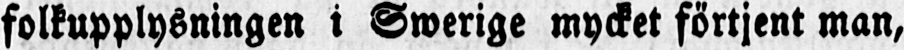folkupplysningen i Swerige mycket förtjent man,
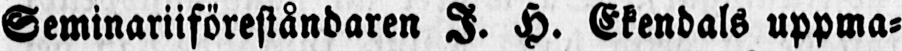Seminariiföreståndaren I. H. Stendals uppma-
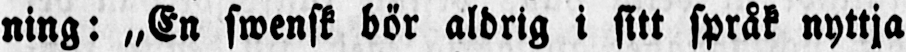ning: „En swensk bör aldrig i sitt språk nyttja
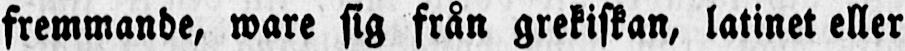fremmande, ware sig från grekiskan, latinet eller
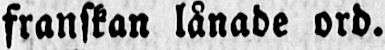franskan lånade ord.
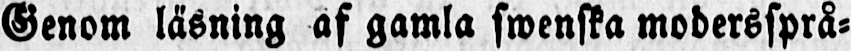Genom läsning af gamla swenska moderssprå-
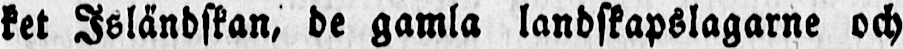ket Isländskan, de gamla landskapslagarne och
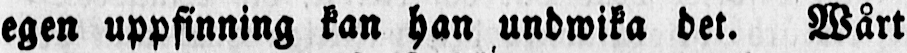egen uppfinning kan han undwika det. Wårt
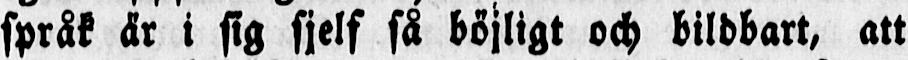språk är i sig sjelf så böjligt och bildbart, att
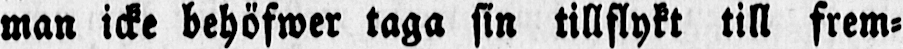man icke behöfwer taga sin tillflykt till frem-
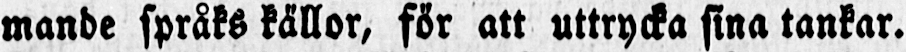mande språks källor, för att uttrycka sina tankar.
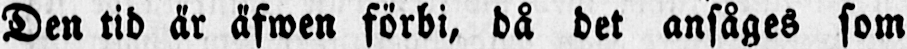Den tid är äfwen förbi, då det ansåges som
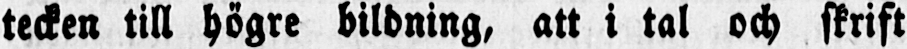tecken till högre bildning, att i tal och skrift
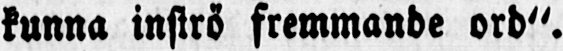kunna inströ fremmande ord".
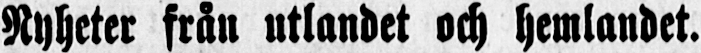Nyheter från utlandet och hemlandet.
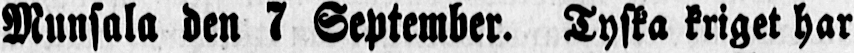Munsala den 7 September. Tyska kriget har
